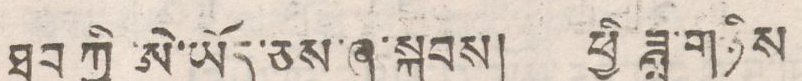ཐུབ ཀྱི་ཨེ་ཡོད་ཅས་ཞུ་སྐབས། ཕྱི ཟླ་གཉིས
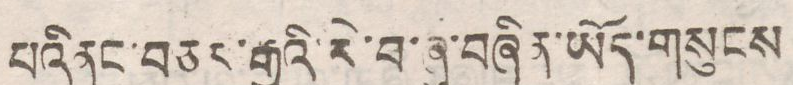པའི ནང་བཅང་རྒྱུའི་རེ་བ་ཞུ་བཞིན་ཡོད་གསུངས་
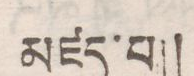མཛད་པ།།
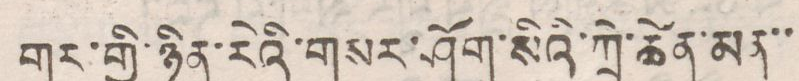གར་གྱི་ཉིན་རེའི་གསར་ཤོག་སིའི་ཀྲེ་ཚེན་མན་་
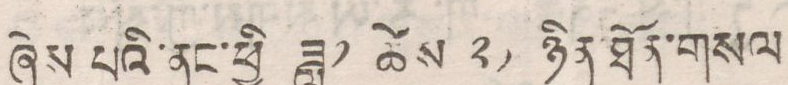ཞེས པའི་ནང་ཕྱི་ཟླ༡ ཚེས་ ༢༡ ཉིན་ཐོན་གསལ
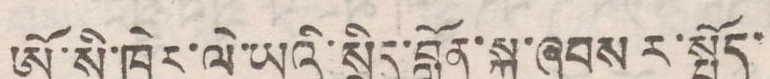ཨོ་སི་ཁྲེར་ལེ་ཡའི་སྲིད་བློན་སྐུ་ཞབས ར་སྤོད་
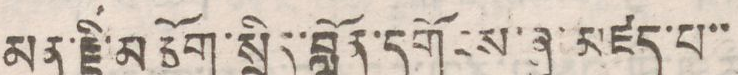མན་རྗི་མཆོག་སྲིད་བློན་དགོངས་ཞུ་མཛད་པ་་
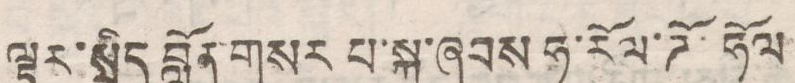ལྟར་སྲིད བློན་གསར པ་སྐུ་ཞབས ཧ་རོལ་ཌོ་ཧོལ
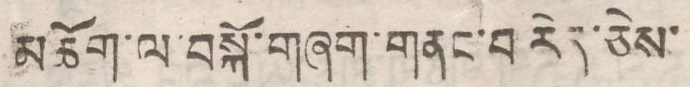མཆོག་ལ་བསྐོ་གཞག་གནང་བ་རེད་ཅེས་
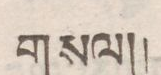གསལ།།
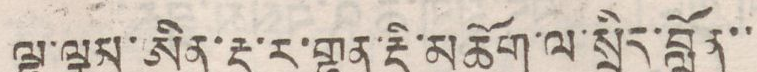ལྷ་ལྕམ་ཨིན་རྡ་ར་གྷན་རྡི་མཆོག་ལ་སྲིད་བློན་་
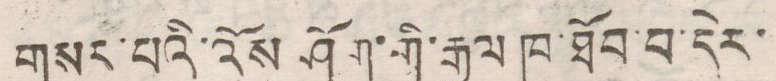གསར་པའི་འོས ཤོག་གི་རྒྱལ ཁ་ཐོབ་བ་དེར་
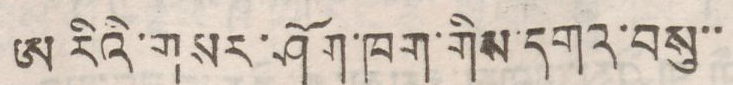ཨ རེའི་གསར་ཤོག་ཁག་གིས་དགའ་བསུ་་
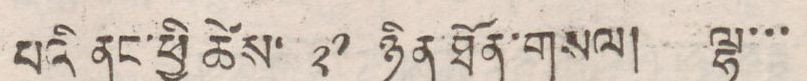པའི ནང་ཕྱི ཚེས་ ༢༡ ཉིན་ཐོན་གསལ། ལྷ་་་
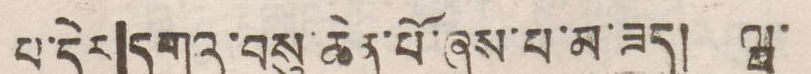པ་དེར་དགའ་བསུ་ཆེན་པོ་ཞུས་པ་མ་ཟད། ཝ་
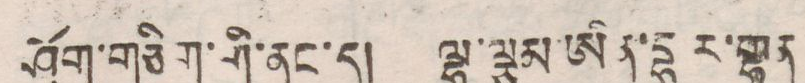ཤོག་གཅིག་གི་ནང་དུ། ལྷ་ལྕམ་ཨིན་དྷ ར་གྷན
